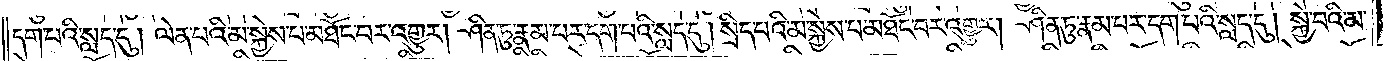དག་པའི་སླད་དུ། ལེན་པའི་མ་སྐྱེས་པ་མཐོང་བར་འགྱུར། ཤིན་ཏུ་རྣམ་པར་དག་པའི་སླད་དུ། སྲིད་པའི་མ་སྐྱེས་པ་མཐོང་བར་འགྱུར། ཤིན་ཏུ་རྣམ་པར་དག་པའི་སླད་དུ། སྐྱེ་བའི་མ་
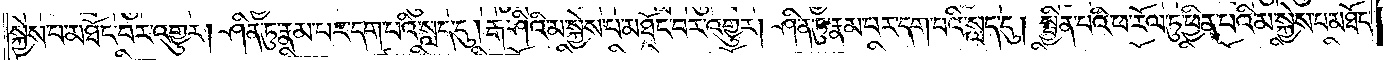སྐྱེས་པ་མཐོང་བར་འགྱུར། ཤིན་ཏུ་རྣམ་པར་དག་པའི་སླད་དུ། རྒ་ཤིའི་མ་སྐྱེས་པ་མཐོང་བར་འགྱུར། ཤིན་ཏུ་རྣམ་པར་དག་པའི་སླད་དུ། སྦྱིན་པའི་ཕ་རོལ་ཏུ་ཕྱིན་པའི་མ་སྐྱེས་པ་མཐོང་
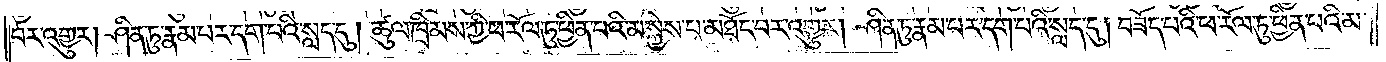བར་འགྱུར། ཤིན་ཏུ་རྣམ་པར་དག་པའི་སླད་དུ། ཚུལ་ཁྲིམས་ཀྱི་ཕ་རོལ་ཏུ་ཕྱིན་པའི་མ་སྐྱེས་པ་མཐོང་བར་འགྱུར། ཤིན་ཏུ་རྣམ་པར་དག་པའི་སླད་དུ། བཟོད་པའི་ཕ་རོལ་ཏུ་ཕྱིན་པའི་མ་
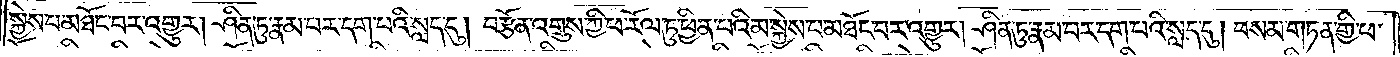སྐྱེས་པ་མཐོང་བར་འགྱུར། ཤིན་ཏུ་རྣམ་པར་དག་པའི་སླད་དུ། བརྩོན་འགྲུས་ཀྱི་ཕ་རོལ་ཏུ་ཕྱིན་པའི་མ་སྐྱེས་པ་མཐོང་བར་འགྱུར། ཤིན་ཏུ་རྣམ་པར་དག་པའི་སླད་དུ། བསམ་གཏན་གྱི་ཕ་
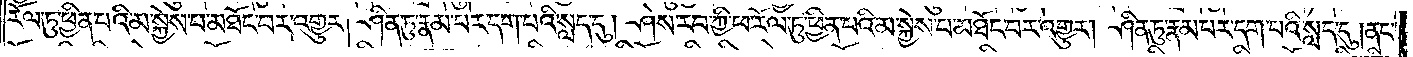རོལ་ཏུ་ཕྱིན་པའི་མ་སྐྱེས་པ་མཐོང་བར་འགྱུར། ཤིན་ཏུ་རྣམ་པར་དག་པའི་སླད་དུ། ཤེས་རབ་ཀྱི་ཕ་རོལ་ཏུ་ཕྱིན་པའི་མ་སྐྱེས་པ་མཐོང་བར་འགྱུར། ཤིན་ཏུ་རྣམ་པར་དག་པའི་སླད་དུ། ནང་
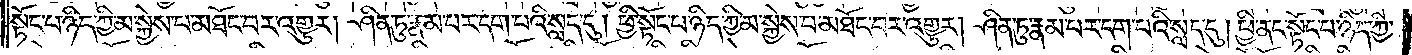སྟོང་པ་ཉིད་ཀྱི་མ་སྐྱེས་པ་མཐོང་བར་འགྱུར། ཤིན་ཏུ་རྣམ་པར་དག་པའི་སླད་དུ། ཕྱི་སྟོང་པ་ཉིད་ཀྱི་མ་སྐྱེས་པ་མཐོང་བར་འགྱུར། ཤིན་ཏུ་རྣམ་པར་དག་པའི་སླད་དུ། ཕྱི་ནང་སྟོང་པ་ཉིད་ཀྱི་
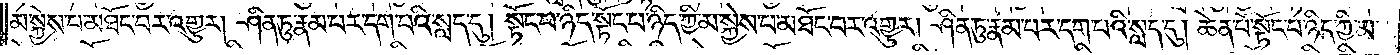མ་སྐྱེས་པ་མཐོང་བར་འགྱུར། ཤིན་ཏུ་རྣམ་པར་དག་པའི་སླད་དུ། སྟོང་པ་ཉིད་སྟོང་པ་ཉིད་ཀྱི་མ་སྐྱེས་པ་མཐོང་བར་འགྱུར། ཤིན་ཏུ་རྣམ་པར་དག་པའི་སླད་དུ། ཆེན་པོ་སྟོང་པ་ཉིད་ཀྱི་མ་
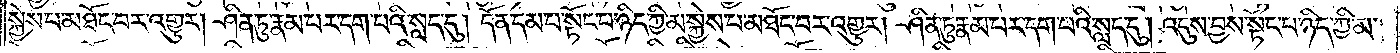སྐྱེས་པ་མཐོང་བར་འགྱུར། ཤིན་ཏུ་རྣམ་པར་དག་པའི་སླད་དུ། དོན་དམ་པ་སྟོང་པ་ཉིད་ཀྱི་མ་སྐྱེས་པ་མཐོང་བར་འགྱུར། ཤིན་ཏུ་རྣམ་པར་དག་པའི་སླད་དུ། འདུས་བྱས་སྟོང་པ་ཉིད་ཀྱི་མ་
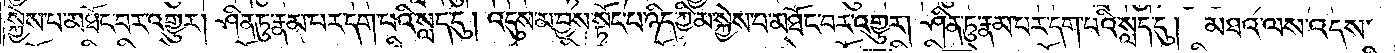སྐྱེས་པ་མཐོང་བར་འགྱུར། ཤིན་ཏུ་རྣམ་པར་དག་པའི་སླད་དུ། འདུས་མ་བྱས་སྟོང་པ་ཉིད་ཀྱི་མ་སྐྱེས་པ་མཐོང་བར་འགྱུར། ཤིན་ཏུ་རྣམ་པར་དག་པའི་སླད་དུ། མཐའ་ལས་འདས་
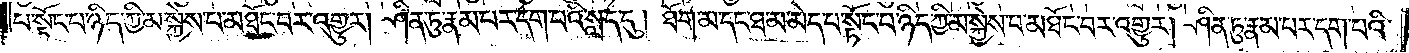པ་སྟོང་པ་ཉིད་ཀྱི་མ་སྐྱེས་པ་མཐོང་བར་འགྱུར། ཤིན་ཏུ་རྣམ་པར་དག་པའི་སླད་དུ། ཐོག་མ་དང་ཐ་མ་མེད་པ་སྟོང་པ་ཉིད་ཀྱི་མ་སྐྱེས་པ་མཐོང་བར་འགྱུར། ཤིན་ཏུ་རྣམ་པར་དག་པའི་
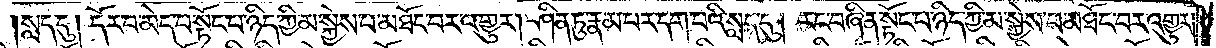སླད་དུ། དོར་བ་མེད་པ་སྟོང་པ་ཉིད་ཀྱི་མ་སྐྱེས་པ་མཐོང་བར་འགྱུར། ཤིན་ཏུ་རྣམ་པར་དག་པའི་སླད་དུ། རང་བཞིན་སྟོང་པ་ཉིད་ཀྱི་མ་སྐྱེས་པ་མཐོང་བར་འགྱུར།
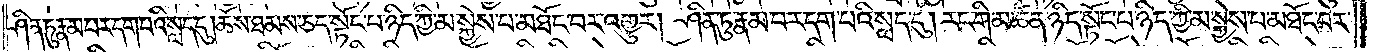ཤིན་ཏུ་རྣམ་པར་དག་པའི་སླད་དུ།ཆོས་ཐམས་ཅད་སྟོང་པ་ཉིད་ཀྱི་མ་སྐྱེས་པ་མཐོང་བར་འགྱུར། ཤིན་ཏུ་རྣམ་པར་དག་པའི་སླད་དུ། རང་གི་མཚན་ཉིད་སྟོང་པ་ཉིད་ཀྱི་མ་སྐྱེས་པ་མཐོང་བར་
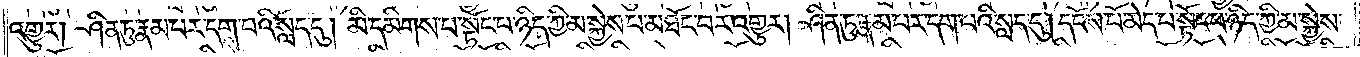འགྱུར༏ ཤིན་ཏུ་རྣམ་པར་དག་པའི་སླད་དུ། མི་དམིགས་པ་སྟོང་པ་ཉིད་ཀྱི་མ་སྐྱེས་པ་མཐོང་བར་འགྱུར། ཤིན་ཏུ་རྣམ་པར་དག་པའི་སླད་དུ། དངོས་པོ་མེད་པ་སྟོང་པ་ཉིད་ཀྱི་མ་སྐྱེས་
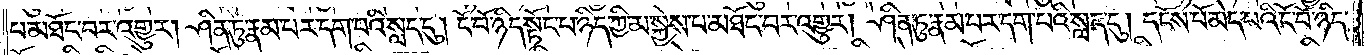པ་མཐོང་བར་འགྱུར། ཤིན་ཏུ་རྣམ་པར་དག་པའི་སླད་དུ། ངོ་བོ་ཉིད་སྟོང་པ་ཉིད་ཀྱི་མ་སྐྱེས་པ་མཐོང་བར་འགྱུར། ཤིན་ཏུ་རྣམ་པར་དག་པའི་སླད་དུ། དངོས་པོ་མེད་པའི་ངོ་བོ་ཉིད་
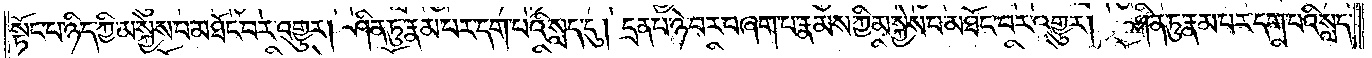སྟོང་པ་ཉིད་ཀྱི་མ་སྐྱེས་པ་མཐོང་བར་འགྱུར། ཤིན་ཏུ་རྣམ་པར་དག་པའི་སླད་དུ། དྲན་པ་ཉེ་བར་བཞག་པ་རྣམས་ཀྱི་མ་སྐྱེས་པ་མཐོང་བར་འགྱུར། ཤིན་ཏུ་རྣམ་པར་དག་པའི་སླད་
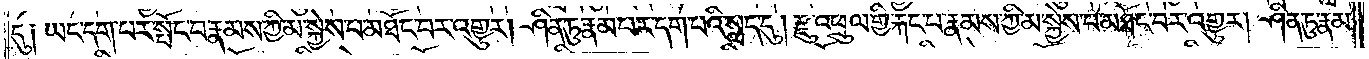དུ། ཡང་དག་པར་སྤོང་བ་རྣམས་ཀྱི་མ་སྐྱེས་པ་མཐོང་བར་འགྱུར། ཤིན་ཏུ་རྣམ་པར་དག་པའི་སླད་དུ། རྫུ་འཕྲུལ་གྱི་རྐང་པ་རྣམས་ཀྱི་མ་སྐྱེས་པ་མཐོང་བར་འགྱུར། ཤིན་ཏུ་རྣམ་
